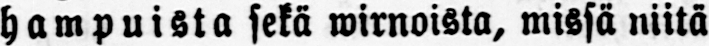hampuista sekä wirnoista, missä niitä
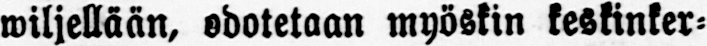wiljellään, odotetaan myöskin keskinker-
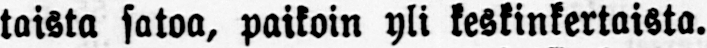taista satoa, paikoin yli keskinkertaista.
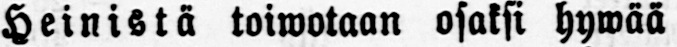Heinistä toiwataan osaksi hywää
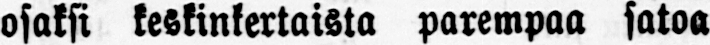osaksi keskinkertaista parempaa satoa
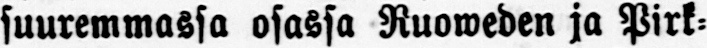suuremmassa osassa Ruoweden
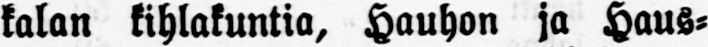kalan kihlakuntia, Hauhon ja Haus-
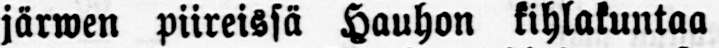järwen piireissä Hauhon kihlakuntaa
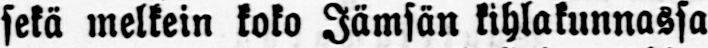sekä melkein koko Jämsän kihlakunnassa
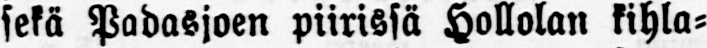sekä Padasjoen piirissä Hollolan kihla-
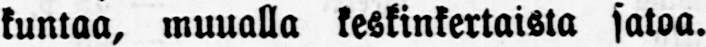kuntaa, muualla keskinkertaista satoa.
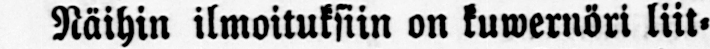Näihin ilmoituksiin on kuwernöri liit-
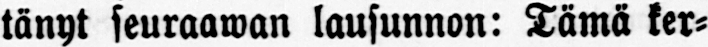tänyt seuraawan lausunon: Tämä ker-
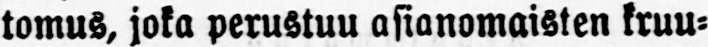tomus, joka perustuu asianomaisten kruu-
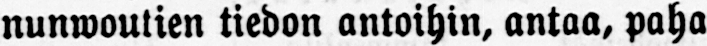nunwoutien tiedon antoihin, antaa, paha
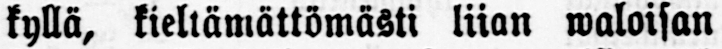kyllä, kieltämättömästi liian waloisan
